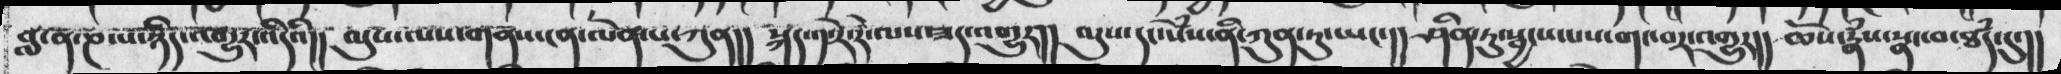བླ་ན་ཎ་པ་ཉིད་འགྱུར་འདིའི།།  ལུས་ལས་གནས་ངན་ལེན་པ་ཀུན།།  སྐད་༡་རེ་རེ་ལས་ཟད་འགྱུར།།  ལུས་དང་སེཾས་ནི་ཀུན་ཏུ་ཡང་།།  ཤིན་ཏུ་སྦྱངས་པས་གང་བར་འགྱུར།།  ཆོས་རྣཾས་སྣང་བ་ཐཾད་དུ་།།
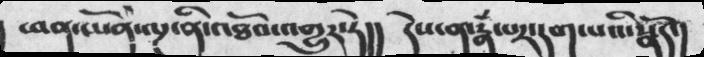ཕན་ཡོན་ལྔ་ནི་འཐོབ་འགྱུར་ཏེ།།. དེས་ན་རྣཾ་པར་དག་པའི་སྣོད་།
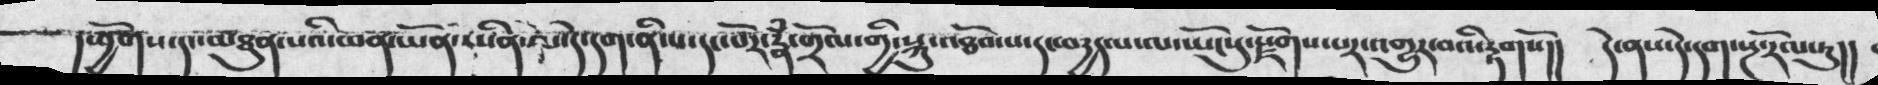།ཕྱོགས་དང་མཐུན་པའི་ཕན་ཡོན་ཡིན་ལ་དེ་དག་ནི་ས་དང་པོར་རྣཾ་གྲོལ་གྱི་སྐུ་འཐོབ་པ་དང་བདྱད་པ་ལ་ཡོངསུ་རྫོགས་པར་འགྱུར་བའི་རྟགསོ།།   དེ་ནས་དེ་དག་སྔ་རོལ་ཏུ།།
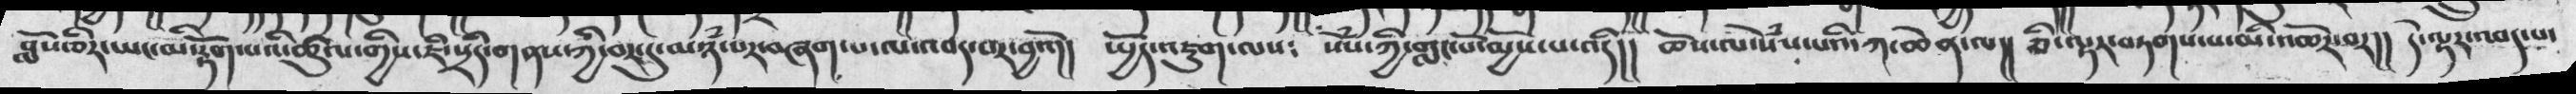བློས་ཅིར་ཡང་མི་རྟོག་པའི་ཚུལ་གྱིས་ཇི་སྲིད་གནས་ཀྱི་བར་དུ་མཉཾ་པར་བཞག་པ་ལ་འབད་བར་བྱའོ།།  སྤྱོད་འཇུག་ལས༴   ཨོཾ་ཀྱི་གླང་པོ་མྱོས་པ་འདི།།  ཆོས་ལ་སེཾས་པའི་ཀ་ཆེན་ལ།།  ཅི་ལྟར་བཏགས་པ་མི་འཆོརཔ་  དེ་ལྟར་འབད་པ་
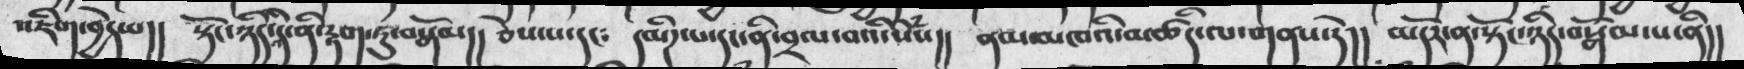འཇིག་བྱེད་པ།།  སྟོང་ཉིད་དི་ནི་རྟག་ཏུ་བསྒོམ།།  ཅེས་པ་དང༴  དམིཌ་པ་དང་ནི་བྲལ་བའི་སེཾས།།  ནམ་མཁའི་མཚིད་ལ་གནས་རེ།།  མདོར་ན་སྟོང་ཉིད་བསྒོམ་པ་ནི།།
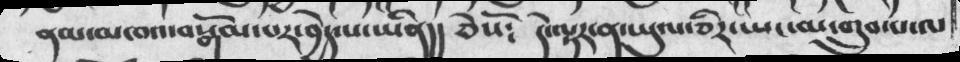ནམ་མཁའ་བསྒོམ་པར་བྱེད་པ་ཡིན།། ཅེསོ༴  དེ་ལྟར་ན་ཡུལ་ཅིར་ཡང་མ་གྲུབ་པ་ལ
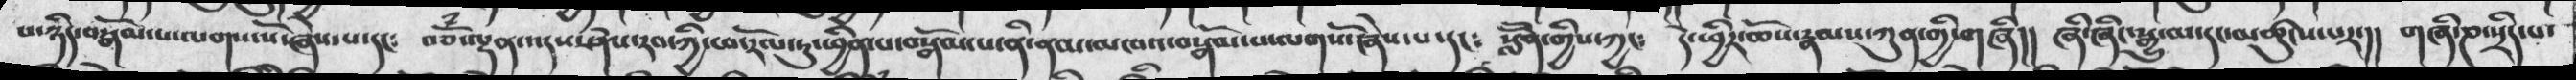པ་ཉིད་བསྒོམ་པ་ལགས་སོ་ཞེས་པ་དང༴  བཅོཾ་ལྡན་འདས་ཤེས་རབ་ཀྱི་ཕ་རོལ་ཏུ་ཕྱིན་པ་བསྒོམ་པ་ནི་ནམ་མལཁའ་བསྒོམ་པ་ལགསོ་ཞེས་པ་དང༴  སློོན་གྱིས་ཀྱང༴  དེ་ཕྱིར་ཆོས་རྣམས་ཀུན་གྱི་གཞི།།  ཞི་ཞཱིང་སྒྱུ་མ་དང་མཚུངས་པར་།།  གཞི་ཎ་སྲིད་པ་
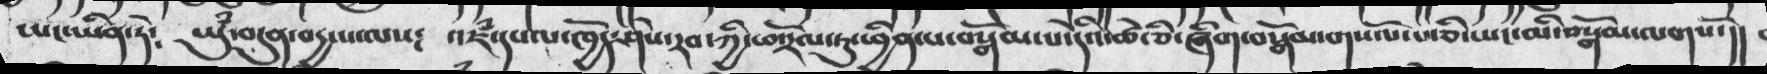ཡང་ཡིན་ཏེ༴   ཡུཾ་བདུན་བདྱ་པ་ལས༴  འཇཾ་དཔལ་ཁྱོད་ཤེས་རབ་ཀྱི་ཕ་རོལ་ཏུ་ཕྱིན་པ་བསྒོམ་པ་དེའི་ཚེ་ཅི་ཞིག་བསྒོམ་གསོལ་པ་ཅི་ཡང་མི་བསྒོམ་ལགསོ་།།
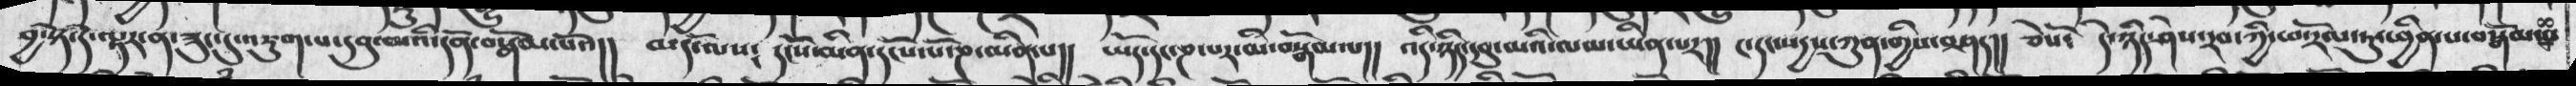བྱ་སྟེ་དེ་ལྟར་ན་ཟུང་དུ་འཇུག་པ་དབུ་མའི་དོན་བསྒོམ་པའོ།། མདོ་ལས༴  དངོས་མིན་དངོས་པོ་ཎ་མིན་པ།།  ཡོད་དང་ཎ་པར་མི་བསྒོམ་པ།།  འདི་ཉིད་དབུ་མའི་ལམ་ཡིན་པར།།  ༤དང་སདྱས་ཀུན་གྱི་སབཤད།།  ཅེསོ༴  དེ་ཉིད་ཤེས་རབ་ཀྱི་ཕ་རོལ་ཏུ་ཕྱིན་པ་བསྒོམ་པ་
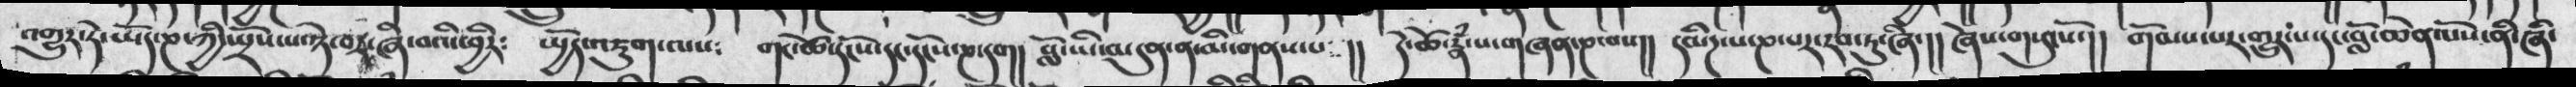འགྱུར་ཏེ་ཡོད་ཎ་ཀྱི་སྤྲོས་པ་ཉེ་བར་ཞི་བའི་ཕྱིར༴  སྤྱོད་འཇུག་ལས༴  གང་ཚེ་དངོས་དང་དངོས་ཎ་དག།  བློ་ཡི་མདུན་ན་མི་གནས་པ།།  དེ་ཚེ་རྣཾ་པ་གཞན་ཎ་པས།།  དམིཌ་པ་ཎ་པར་རབ་ཏུ་ཞི་།།  ཞེས་གསུངསསོ་།།  གོམས་པར་གྱུར་པ་དང་བློ་ཆེན་པོས་ནི་ཞི་
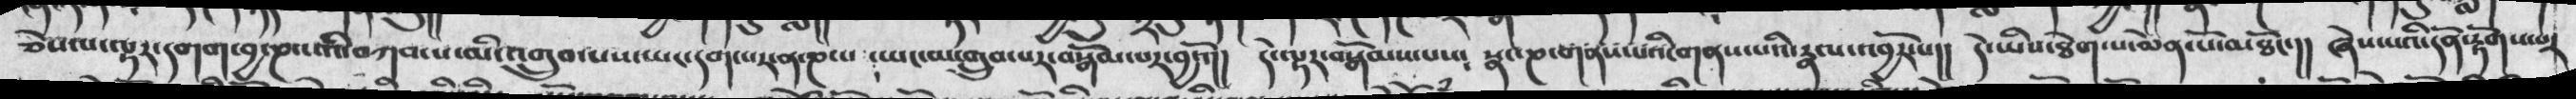ཅེས་པ་ལྟར་དགག་བྱ་ཎ་པའི་བཀབ་པ་མི་འགྲུབ་པས་ཡང་དག་པར་ན་ཎ་པ་ཡང་མ་གྲུབ་པར་བསྒོམ་པར་བྱ་འོ།།  དེ་ལྟར་བསྒོམས་པས༴  སྣང་ཎ་གནས་པའི་གནས་པའི་རྣལ་འབྱོར་པ།།  དེ་ཡིས་ཐེག་པ་མེན་པོ་མཐོང་།།  ཞེས་པའི་དོན་རྟོགས་པར
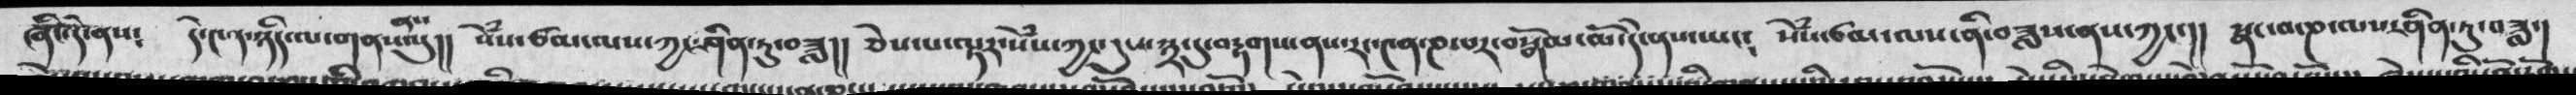ཞིང་དེ་ནས༴  དེ་༤ན་ཉིད་ལ་གནས་ནས་སུ།།  སེཾས་ཙམ་ལས་ཀྱང་ཤིན་ཏུ་བཟླ།།  ཅེས་པ་ལྟར་སེཾས་ཀྱང་དུས་༣་དུ་བརྟགས་ནས་རང་༤ན་ཎ་པར་བསྒོམ་མོ་དེ་ནས་ཡང༴  སེྃས་རྩམ་ལས་ནི་བཟླས་ནས་ཀྱང་།།  སྣང་བ་ཎ་ལས་ཤིན་ཏུ་བཟླ་།
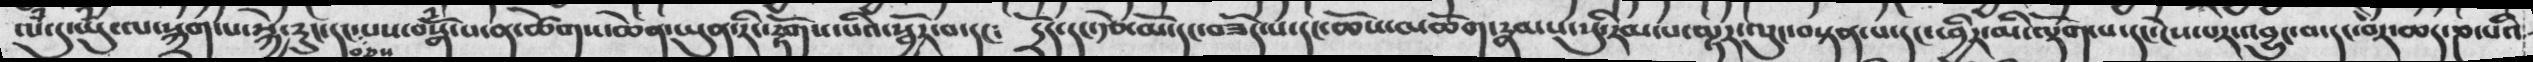ལཾ་དུ་ཡུཾ་ལ་སྐྲག་པ་སྐྱེ་རུང་དང་བཅས་པས་བསྒོཾ་པ་ན་ཚེགས་ཆེན་ཡུན་རིང་རྟོགས་པའི་སྦྱོར་བ་དང༴   དྲོད་དང་རྩེ་མོ་དང་བཟོད་པ་དང་ཆོས་མཆོག་རྣམས་སུ་རིམ་པ་ལྟར་ལུང་བསྟན་པ་དང་ཕྱིར་མི་ལྡོག་པ་དང་ངེས་པར་འབྱུང་བ་དང་བར་ཆད་ཎ་པའི
